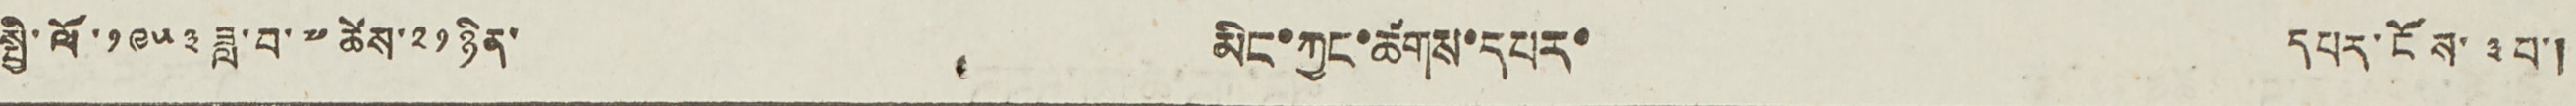སྤྱི་ལོ་ ༡༩༥༣ ཟླ་བ་ ༧ ཚེས་ ༢༡ ཉིན་ མིང་ཀྱང་ཚགས་དཔར་ དཔར་ངོས་ ༣ པ་།
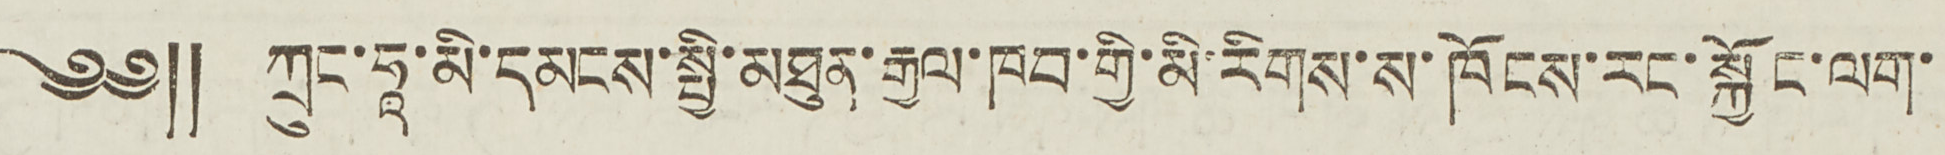༄༅༎ ཀྲུང་ཧཱ་མི་དམངས་སྤྱི་མཐུན་རྒྱལ་ཁབ་གྱི་མི་རིགས་ས་ཁོངས་རང་སྐྱོང་ལག་
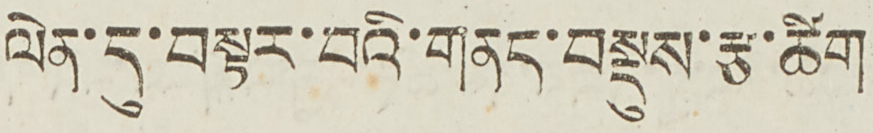ལེན་དུ་བསྟར་བའི་གནད་བསྡུས་རྩ་ཚིག
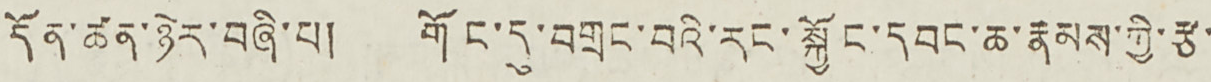དོན་ཚན་ཉེར་བཞི་པ། གོང་དུ་བགྲང་བའི་རང་སྐྱོང་དབང་ཆ་རྣམས་ཀྱི་རྩ་
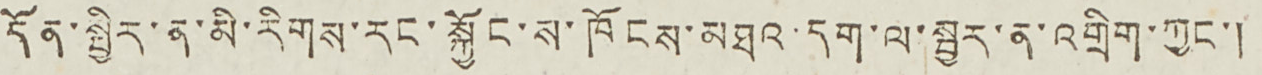དོན་སྤྱིར་ན་མི་རིགས་རང་སྐྱོང་ས་ཁོངས་མཐའ་དག་ལ་སྦྱར་ན་འགྲིག་ཀྱང་།
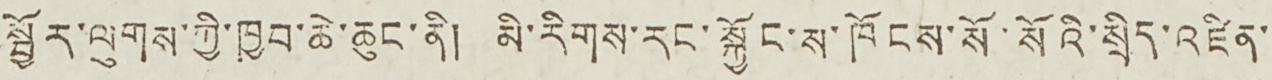སྦྱོར་ལུགས་ཀྱི་ཁྱབ་ཆེ་ཆུང་ནི། མི་རིགས་རང་སྐྱོང་ས་ཁོངས་སོ་སོའི་སྲིད་འཛིན་
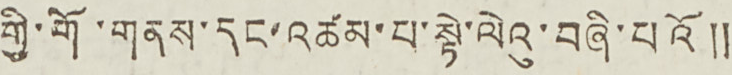གྱི་གོ་གནས་དང་འཚམ་པ་སྟེ་ལེའུ་བཞི་པའོ༎
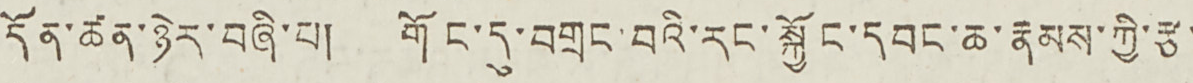དོན་ཚན་ཉེར་བཞི་པ། གོང་དུ་བགྲང་བའི་རང་སྐྱོང་དབང་ཆ་རྣམས་ཀྱི་རྩ་
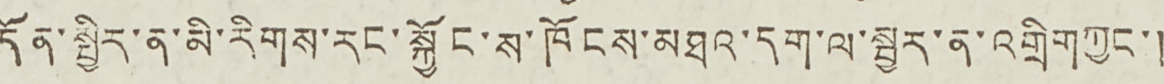དོན་སྤྱིར་ན་མི་རིགས་རང་སྐྱོང་ས་ཁོངས་མཐའ་དག་ལ་སྦྱར་ན་འགྲིག ཀྱང་།
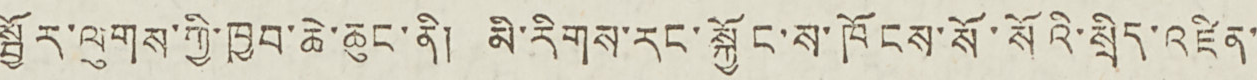སྦྱོར་ལུགས་ཀྱི་ཁྱབ་ཆེ་ཆུང་ནི། མི་རིགས་རང་སྐྱོང་ས་ཁོངས་སོ་སོའི་སྲིད་འཛིན་
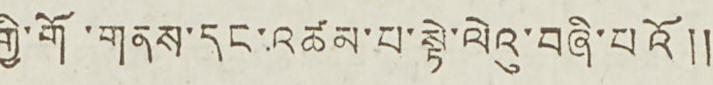གྱི་གོ་གནས་དང་འཚམ་པ་སྟེ་ལེའུ་བཞི་པའོ༎
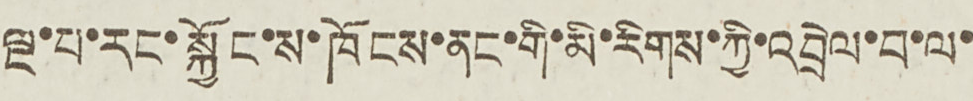ལྔ་པ་རང་སྐྱོང་ས་ཁོངས་ནང་གི་མི་རིགས་ཀྱི་འབྲེལ་བ་ལ་
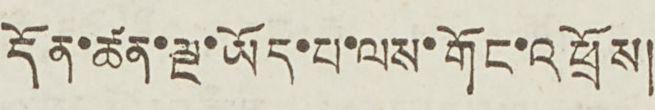དོན་ཚན་ལྔ་ཡོད་པ་ལས་གོང་འཕྲོས།
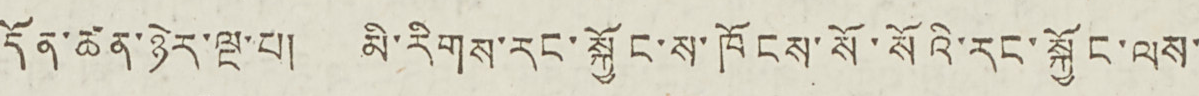དོན་ཚན་ཉེར་ལྔ་པ། མི་རིགས་རང་སྐྱོང་ས་ཁོངས་སོ་སོའི་རང་སྐྱོང་ལས་
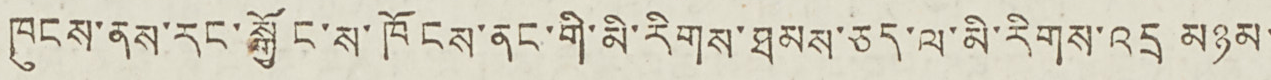ཁུངས་ནས་རང་སྐྱོང་ས་ཁོངས་ནང་གི་མི་རིགས་ཐམས་ཅད་ལ་མི་རིགས་འདྲ མཉམ་
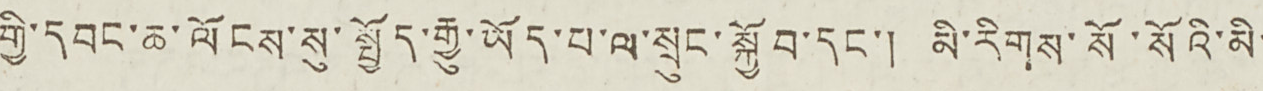གྱི་དབང་ཆ་ལོངས་སུ་སྤྱོད་རྒྱུ་ཡོད་པ་ལ་སྲུང་སྐྱོབ་དང་། མི་རིགས་སོ་སོའི་མི་
